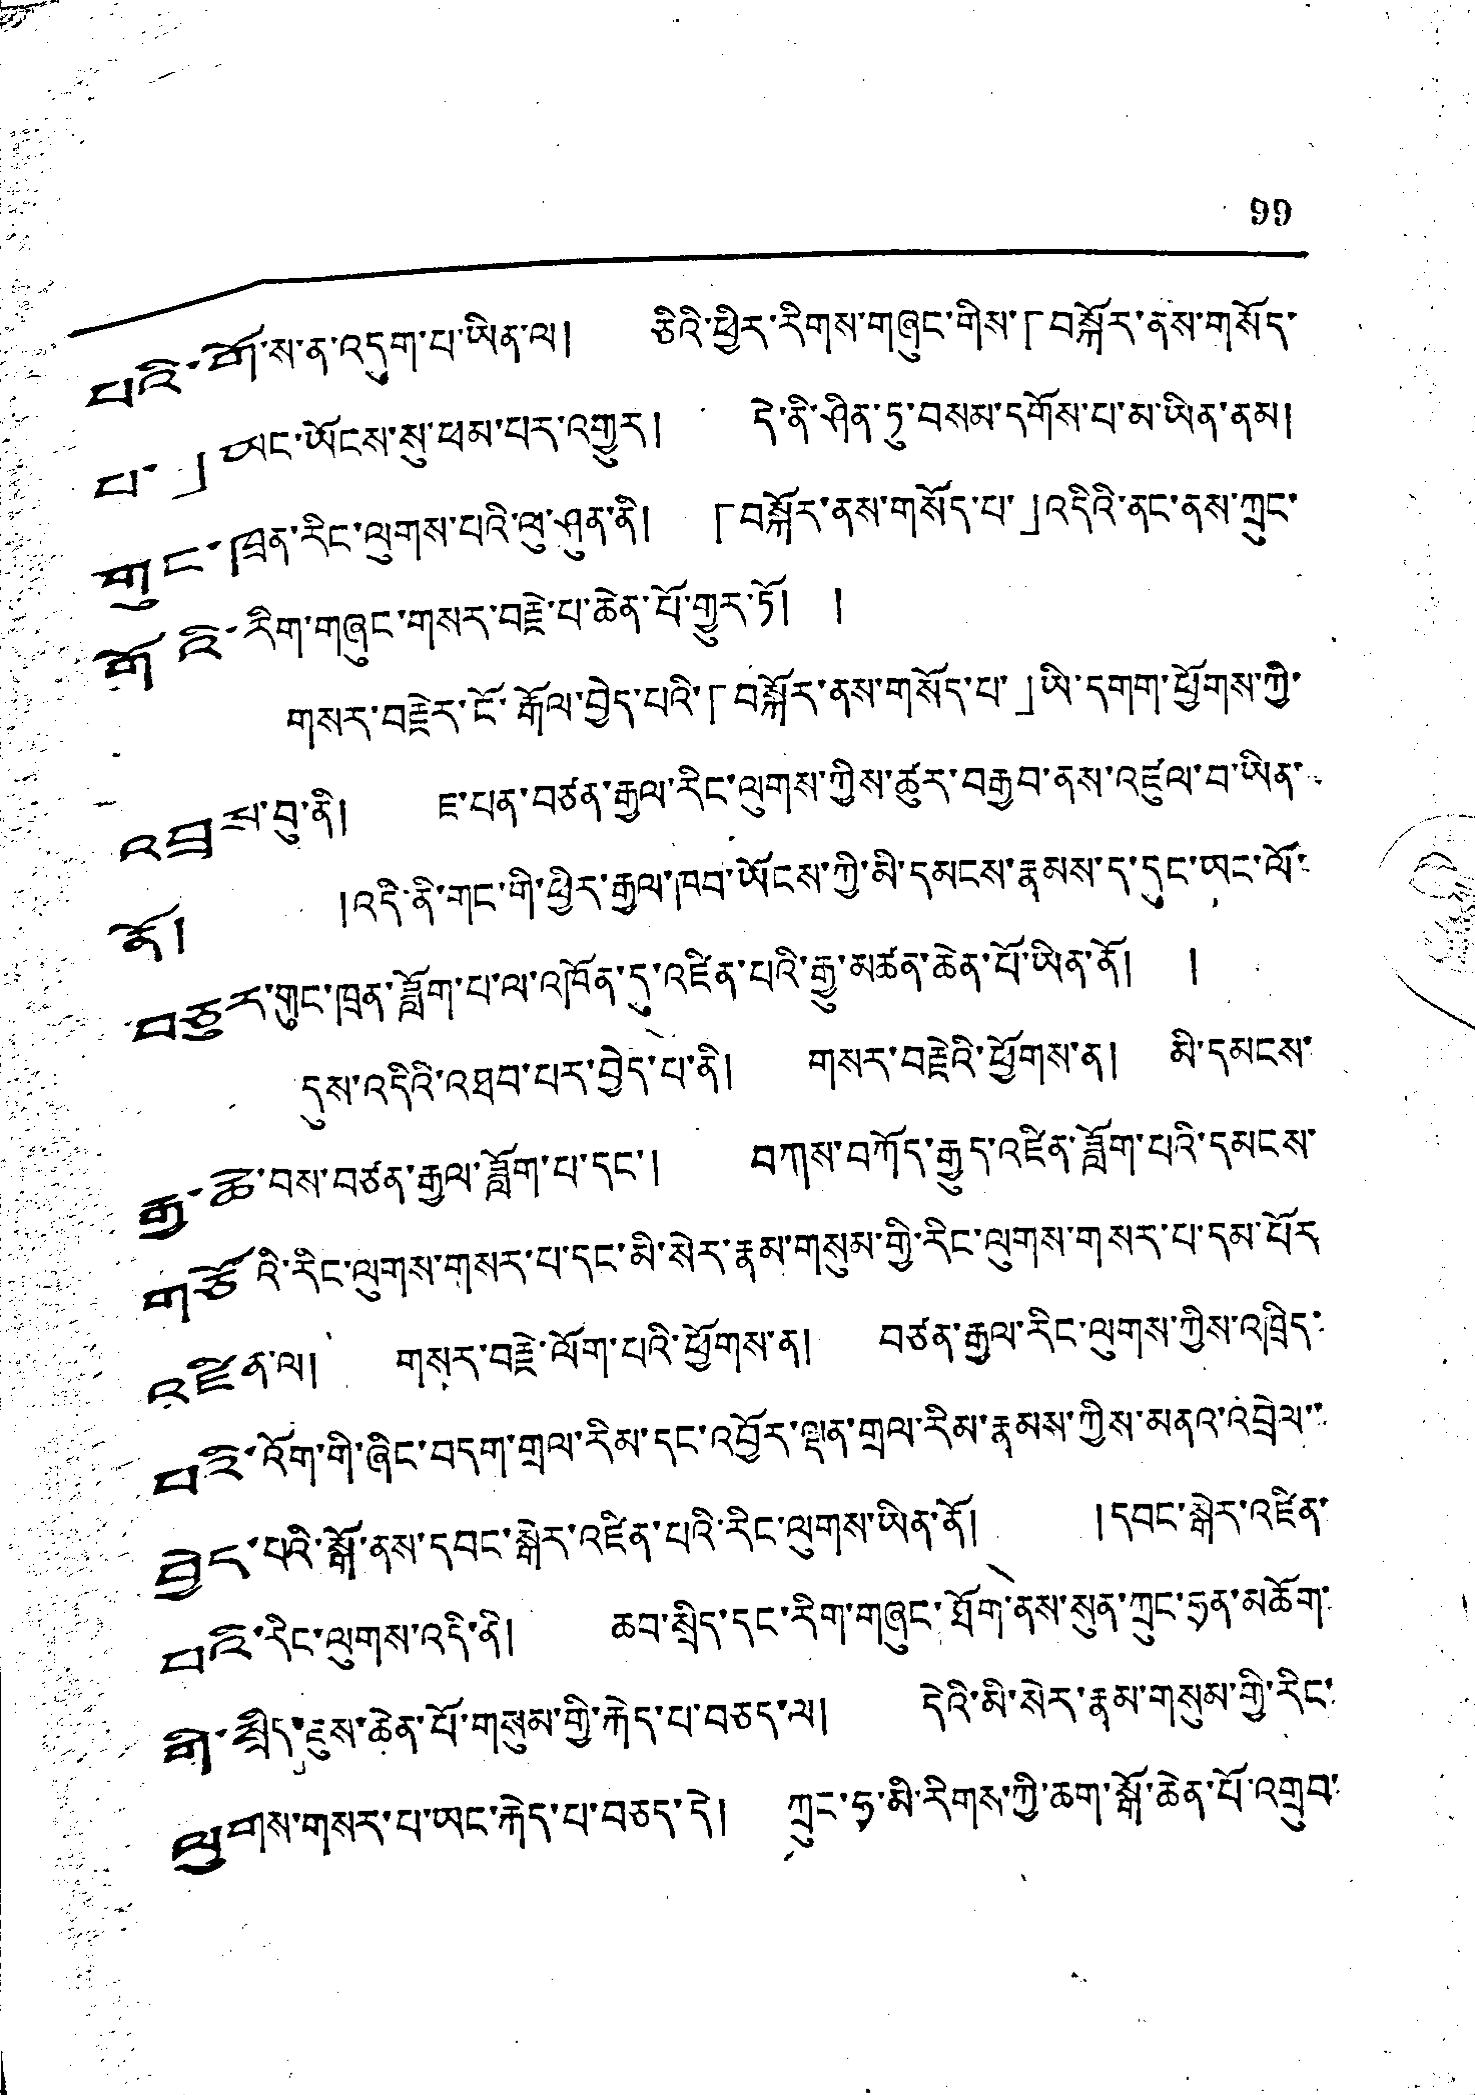99
པའི་གོ་ས་ན་འདུག་པ་ཡིན་ལ། ཅིའི་ཕྱིར་རིགས་གཞུང་གིས་「བསྐོར་ནས་གསོད་
པ་」ཡང་ཡོངས་སུ་ཕམ་པར་འགྱུར། དེ་ནི་ཤིན་ཏུ་བསམ་དགོས་པ་མ་ཡིན་ནམ།
གུང་ཁན་རིང་ལུགས་པའི་ལུ་ཤུན་ནི། 「བསྐོར་ནས་གསོད་པ་」འདིའི་ནང་ནས་ཀྲུང་
གོའི་རིག་གཞུང་གསར་བརྗེ་པ་ཆེན་པོ་གྱུར་ཏོ། །
གསར་བརྗེར་ངོ་རྒོལ་བྱེད་པའི་「བསྐོར་ནས་གསོད་པ་」ཡི་དགག་ཕྱོགས་ཀྱི་
འབྲས་བུ་ནི། ཇ་པན་བཙན་རྒྱལ་རིང་ལུགས་ཀྱིས་ཚུར་བརྒྱབ་ནས་འཛུལ་བ་ཡིན་
ནོ། །འདི་ནི་གང་གི་ཕྱིར་རྒྱལ་ཁབ་ཡོངས་ཀྱི་མི་དམངས་རྣམས་ད་དུང་ཡང་ལོ་
བཅུར་གུང་ཁྲན་ཟློག་པ་ལ་འཁོན་དུ་འཛིན་པའི་རྒྱུ་མཚན་ཆེན་པོ་ཡིན་ནོ། །
དུས་འདིའི་འཐབ་པར་བྱེད་པ་ནི། གསར་བརྗེའི་ཕྱོགས་ན། མི་དམངས་
རྒྱ་ཆེ་བས་བཙན་རྒྱལ་ཟློག་པ་དང་། བཀས་བཀོད་རྒྱུད་འཛིན་ཟློག་པའི་དམངས་
གཅོའི་རིང་ལུགས་གསར་པ་དང་མི་སེར་རྣམ་གསུམ་གྱི་རིང་ལུགས་གསར་པ་དམ་པོར
འཛིན་ལ། གསར་བརྗེ་ལོག་པའི་ཕྱོགས་ན། བཙན་རྒྱལ་རིང་ལུགས་ཀྱིས་འཁྲིད་
པའི་འོག་གི་ཞིང་བདག་གྲལ་རིམ་དང་འབྱོར་ལྡན་གྲལ་རིམ་རྣམས་ཀྱིས་མནའ་འབྲེལ་་
བྱེད་པའི་སྒོ་ནས་དབང་སྒེར་འཛིན་པའི་རིང་ལུགས་ཡིན་ནོ། །དབང་སྒེར་འཛིན་
པའི་རིང་ལུགས་འདི་ནི། ཆབ་སྲིད་དང་རིག་གཞུང་ཐོག་ནས་སུན་ཀྲུང་ཧྲན་མཆོག་
གི་སྲིད་ཇུས་ཆེན་པོ་གསུམ་གྱི་རྐེད་པ་བཅད་ལ། དེའི་མི་སེར་རྣམ་གསུམ་གྱི་རིང་
ལུགས་གསར་པ་ཡང་རྐེད་པ་བཅད་དེ། ཀྲུང་ཧྭ་མི་རིགས་ཀྱི་ཆག་སྒོ་ཆེན་པོ་འགྲུབ་
